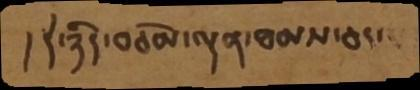།དེ་ཉིད་བཅོམ་ལྡན་ཐམས་ཅད་
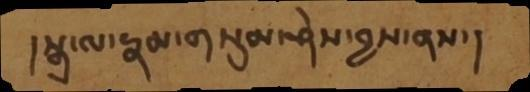།སྒྲ་ལ་རྣམ་གསུམ་ཤེས་བྱས་ནས་།
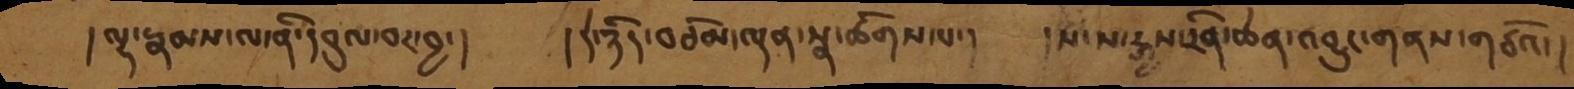།ལྷ་རྣམས་ལ་ནི་དབུལ་བར་བྱ་།   །དེ་ཉིད་བཅོམ་ལྡན་སྣ་ཚོགས་ལ་།   །སངས་རྒྱས་རིན་ཆེན་འབྱུང་གནས་གཙོའ་།
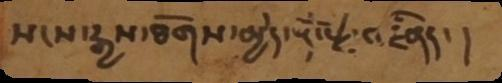སངས་རྒྱས་ཐོགས་མྱེད་རྡོ་རྗེ་འཛིནད་།
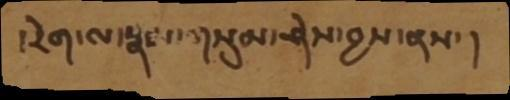།རེག་ལ་རྣམ་གསུམ་ཤེས་བྱས་ནས་།
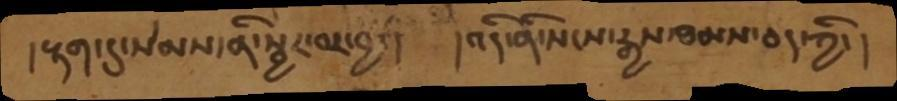།རྟག་དུ་སེམས་ནི་སྦྱར་བར་བྱ་།    །འདི་ནི་སངས་རྒྱས་ཐམས་ཅད་ཀྱི་།
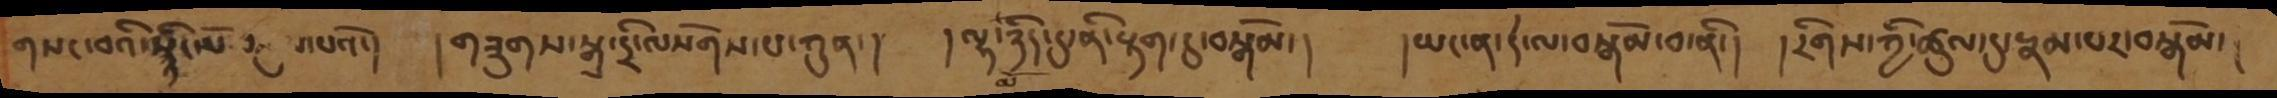གསང་བའི་སྙིང་པོ་འཇུག་པའོ་།   གཟུགས་སྒྲ་དྲི་ལསོགས་པ་ཀུན་།  །ལྷ་ཉིད་དུ་ནི་རྟག་དུ་བསྒོམ་།   །ཡང་ན་དེ་ལ་བསྒོམ་བ་ནི་།   །རིགས་ཀྱི་ཚུལ་དུ་རྣམ་པར་བསྒོམ་།
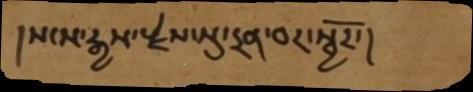།སངས་རྒྱས་རྗེས་སུ་དྲན་བར་སྦྱོར་།
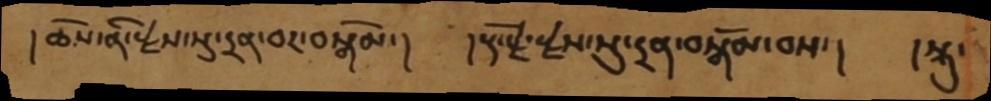།ཆོས་ནི་རྗེས་སུ་དྲན་བར་བསྒོམ་།   །རྡོ་རྗེ་རྗེས་སུ་དྲན་བསྒོམ་བས་།   །སྐུ་
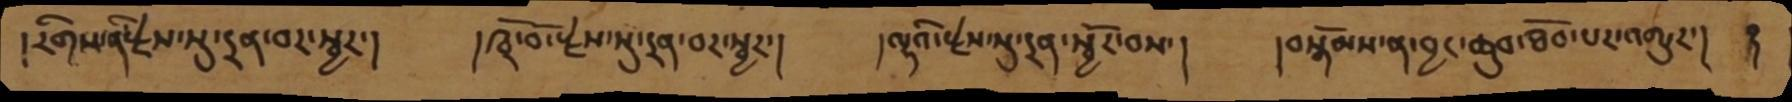།རིགས་ནི་རྗེས་སུ་དྲན་བར་སྦྱར་།   ། ཁྲོ་བོ་རྗེས་སུ་དྲན་བར་སྦྱར་།    །ལྷའི་རྗེས་སུ་དྲན་སྦྱོར་བས་།    །བསྒོམས་ན་བྱང་ཆུབ་ཐོབ་པར་འགྱུར་།   ࿑
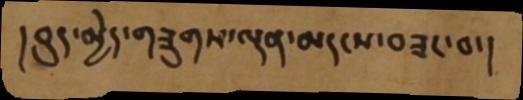།བུད་མྱེད་གཟུགས་ལྡན་མདངས་བཟང་བ་།
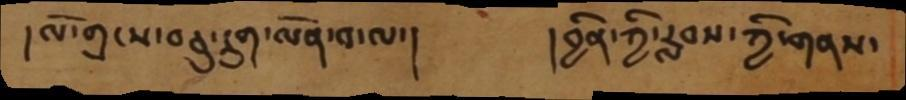།ལོ་གྲངས་བཅུ་དྲུག་ལེན་བ་ལ་།      །བྱིན་ཀྱི་རླབས་ཀྱི་གནས་
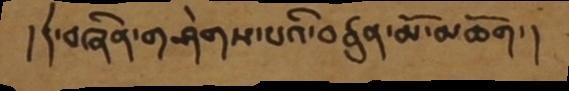།དེ་བཞིན་གཤེགས་པའི་བཙུན་མོ་མཆོག་།
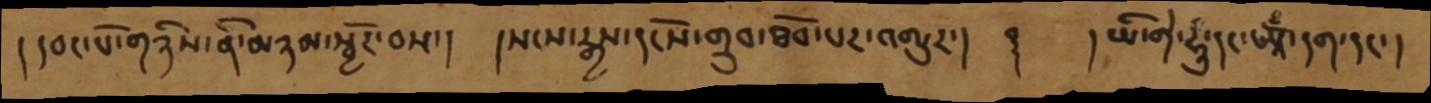།དབང་པོ་གཉིས་ནི་མཉམ་སྦྱོར་བས་།   །སངས་རྒྱས་དངོས་གྲུབ་ཐོབ་པར་འགྱུར་།   ࿑    །ཡི་གེ་ཧཱུཾ་དང་ཨཱོྃ་དག་དང་།
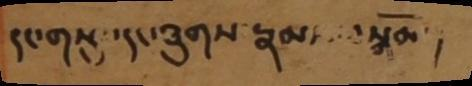དང་གསུང་དང་ཐུགས་རྣམས་བསྒོམ་།
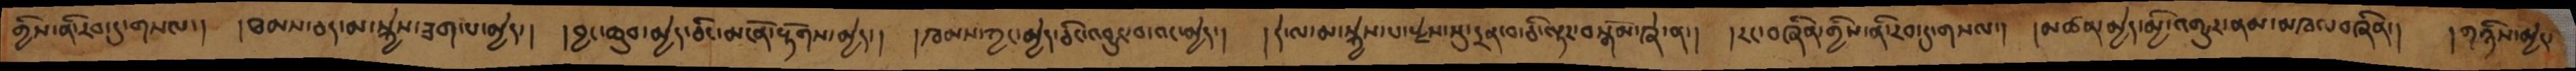གྱིས་ནི་རབ་དུ་གསལ་།  །ཐམས་ཅད་མ་སྐྱེས་ཟག་པ་མྱེད་།   །བྱང་ཆུབ་མྱེད་ཅིང་མངོན་རྟོགས་མྱེད་།   །ཁམས་ཀྱང་མྱེད་ཅིང་འབྱུང་བ་འང་མྱེད་།   །དེ་ལ་མ་སྐྱེས་པ་རྗེས་སུ་དྲན་བ་ཅི་ལྟར་བསྒོམ་ཞེ་ན་།  །རང་བཞིན་གྱིས་ནི་རབ་དུ་གསལ་།   །མཚན་མྱེད་མྱི་འགྱུར་ནམ་མཁའ་བཞིན་།    །གཉིས་མྱེད་
